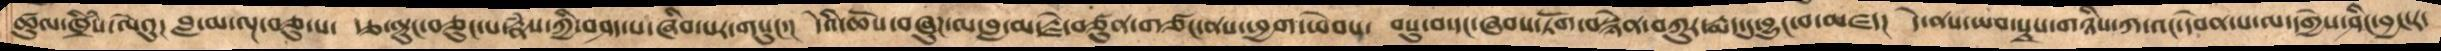ཚུལ་ཁྲིཾས་ལེའུ། བླ་མ་ལྔ་བཅུ་པ། རྩ་ལྟུང་བཅུང་པ་རྣཾས་ཀྱི་བཤད་པ་ཞིབ་པར་གསུང་།  དེའི་ཆོས་བཞུཌ་ལ་བླ་མ་རྗེ་བཙུན་གཙང་ནས་ཕྱག་ཕེབས་  བསུ་བ་དང་ཞབས་ཏོག་བསྙེན་བཀུར་རྨད་དུ་བྱུང་བ་མཛད།  དེ་ནས་ཡབ་སྲས་གཉིིས་ཀ་འང་དབེན་པ་ལ་དགྱེས་ཤིང་བྱང་ར་
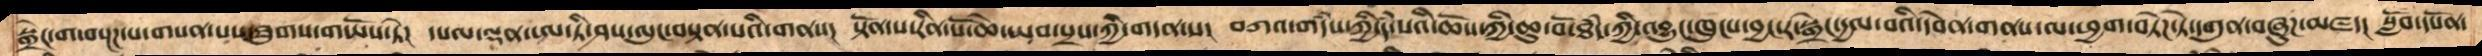སྒྲེང་ག་བསྔཌ་པ་གསན་པས་ཐུགས་གཡོས་ཏེ།  དཔལ་ལྡན་ཨ་ཏི་ཤས་ལུང་བསྟན་པའི་གནས་།  སྟོན་པ་རིན་པོ་ཆེ་ཡབ་སྲས་ཀྱི་གདན་ས།  བཀའ་གདཾས་ཀྱི་དཾ་པའི་ཆོས་ཀྱི་ཆུ་བོ་ཐཾད་ཀྱི་འབྱུང་ཁུངས་བྱང་ར་སྒྲེང་དྱལ་བའི་དབེན་གནས་ལ་ཕྱག་བཏེཌ་ཏེ་དགུན་བཞུཌ་མཛད།  སློབ་དཔོན་
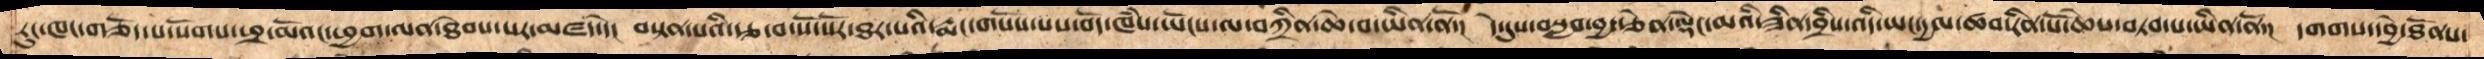རུང་ཁང་གཅོད་པ་སོགས་ཕྲ་མོའང་ཕྱག་ལེན་ཐེབས་པར་མཛད་དེ།  བསྟན་པའི་རྩ་བ་སོ་སོར་ཐར་པའི་རྨང་གསོས་པས་བོད་ཁཾས་ཡོངས་ལ་བཀྲིན་ཆེ་བ་ཡི་ནོ་།  དེ་དུས་བསླབ་བྱ་རྩེན་ལྡེང་མའི་ཟིན་བྲིས་འདི་ཡང་དྱལ་ཚབ་རིན་པོ་ཆེས་བཏབ་པ་ཡིན་ནོ་།  དགགས་དབྱེ་ཐོནས་
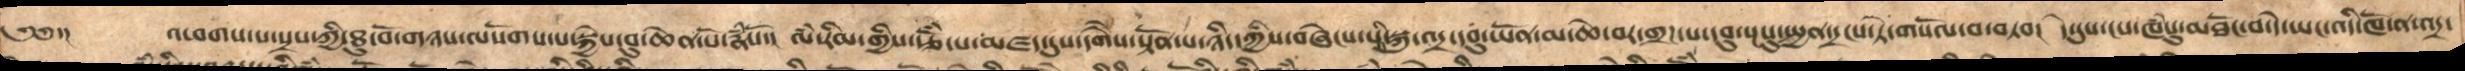༄༅་།     འཕགས་པ་སྲས་ཀྱི་ཐུ་བོ་གཉས་ལསོགས་པ་སྐྱེས་བུ་ཆེན་པོ་རྣཾསོ།  ལཾ་རིམ་གྱི་རྩོཾ་པ་མཛད་དུས་དགཻས་སྟོན་པ་ཉིད་ཀྱིས་བཞེངས་པའི་སྐུ་འདྲ་དབུ་ཡོན་མ་ཆེ་བར་གྲཌ་པ་དབུ་སྔསུ་སྤྱན་དྲངས་ཏེ་གསོལ་བ་བཏབ།  དེ་དུས་ངས་ཁཾསུ་མཐོང་བ་དེ་ཡང་འདི་ཁོ་ན་འདྲ་
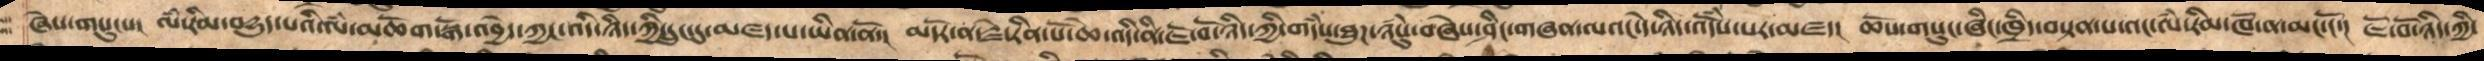ཞེས་གསུངས།  ལཾ་རིམ་བདྱུད་པའི་ལཾ་མཆོག་སྒོ་འབྱེད་ཀྱང་དེ་ཉིད་ཀྱི་དྲུང་དུ་མཛད་པ་ཡིན་ནོ།  མདོར་ན་རྗེ་རིན་པོ་ཆེ་འདི་ནི་ཇོ་བོ་ཉིད་ཀྱི་གདཾས་ཐུཌ་ཉཾསུ་བཞེས་ཤིང་གཞན་ལའང་དེ་ཉིད་འདོཾས་པར་མཛད།  ཆོས་གསུང་ཞིང་ཁྲིད་བསྟན་པའང་ལཾ་རིམ་ཁོ་ན་མང་ངོ་།  ཇོ་བོ་ཉིད་ཀྱི་
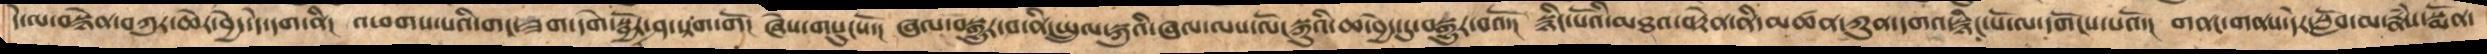དེ་ལ་བསྙེན་བཀུར་ཆེར་བྱེད་དེ་དག་ནི།  འཕགས་པའི་གང་ཟག་དགེ་སྦྱོར་ཤ་སྟག་གོ།  ཞེས་གསུངསོ་།  ཞལ་བསྒྱུར་བ་ནི་སྤྲུལ་སྐུའི་ཞལ་ལས་ལོངསྐུའི་ཆ་བྱེད་དུ་བསྒྱུར་བའོ།  སྙིང་པོའི་མཐའ་བརྟེན་ནི་མཚན་ཀུན་དགའ་སྙིང་པོ་ལ་དགོངས་པའོ།  གནང་གནས་དེར་སློབ་མ་རྣཾས་སྨོན་
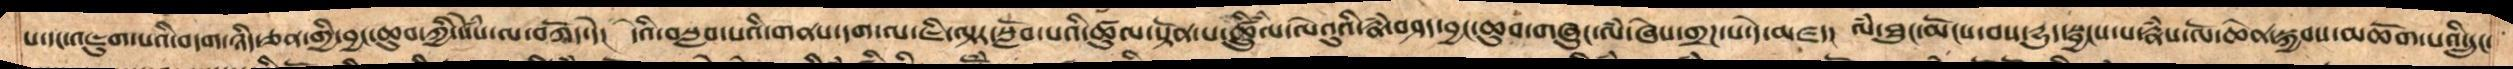པ་དང་འཇུག་པའི་བདག་ཉིད་ཅན་གྱི་བྱང་ཆུབ་ཀྱི་སེཾས་ལ་བཀོད་དེ།  དེའི་བསླབ་པའི་གནས་དག་ལ་ཇི་ལྟར་སློབ་པའི་ཚུལ་སྟོན་པ་ཚྲིུཾས་ལེའུའི་རྣཾ་བཤད་བྱང་ཆུབ་གཞུང་ལཾ་ཞེས་གྲཌ་པ་དེ་མཛད།  ལཾ་ཐུན་མོངས་བས་དྱུད་སྦྱངས་པ་རྣཾས་ལོ་ཆེན་སྐྱབས་མཆོག་པའི་དྲུང་
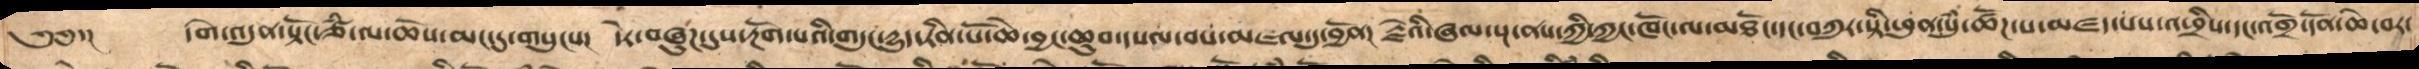༄༅་།     དགེ་འདུན་སྟོང་ཙཾ་ལ་ཆོས་མང་དུ་གསུངས།  དེར་བཞུཌ་དུས་རྔོག་པའི་གདུང་དྱུད་རིན་པོ་ཆེ་བྱང་ཆུབ་དཔལ་བས་མཇལ་དུ་བྱོན།  རྗེའི་ཞལ་སྔ་ནས་ཀྱི་ཀྱང་ཁོང་ལ་མཐོང་དང་བཀུར་སྟི་ཕུན་སུཾ་ཚོཌ་པ་མཛད་པས་འཕྲིས་དང་འགྲོ་དོན་ཆེ་བར་
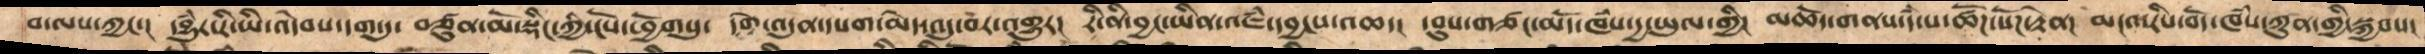བ་ལས་ཀྱང་།  དབྱུཾར་རི་ཡི་འདེབས་དག་དུ་  བཙུན་མོ་སྡིང་ཀྱི་ངོས་ཕྱོགསུ།  དགེ་འདུན་དཔག་མེད་འདུ་བར་འགྱུར།  རི་ནི་བྱང་ཡིན་འཇཾ་དབྱངསའཆད།  དབུས་གཙང་མདོ་ཁཾས་དྱ་ཡུལ་གྱི།  མཆོད་གནས་དཾ་པ་ཚོཌ་སོཌ་རྟེན།  མངའ་རིས་བོད་ཁཾས་ཀུན་གྱི་སྐྱབས།
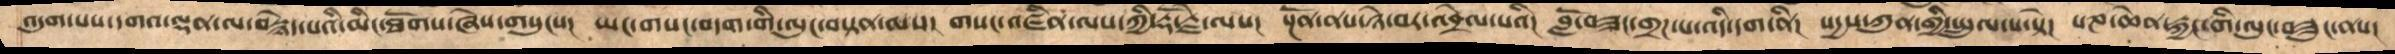འདུག་པས་དགའ་ལྡན་ལ་བསྙེད་པའི་མིང་ཐོགས་ཞེས་གསུངས།  ཡང་གསང་བདག་གི་ལུང་བསྟན་ལས།  གསང་འཛིན་ལས་ཀྱི་རྡོ་རྗེ་ལ།  སྔོན་ནས་ཉེ་བར་འབྲེལ་པའི།  བློ་བཟང་གྲཌ་པ་འདི་ཉིད་ནི།  སདྱས་ཀུན་གྱི་སྤྲུལ་པ་སྟེ།  པཎ་ཆེན་རྐྱང་གི་ལུས་བཟུང་ནས།
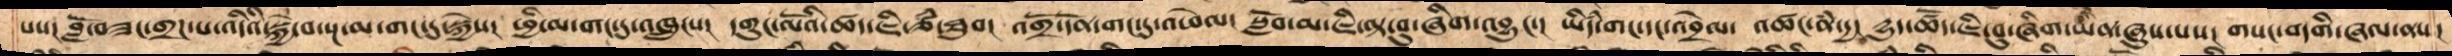པས།  བློ་བཟང་གྲཌ་པ་འདིའི་སྐྱེ་བ་སྔ་མ་གང་དུ་སྐྱེས།  ཕྱི་མ་གང་དུ་འཁྲུངས། དགུང་ལོའི་ཚད་ཇི་ཙཾ་ཐུབ།  འགྲོ་དོན་གང་དུ་འཕེལ།  སློབ་མ་ཇི་ལྟ་བུ་ཞིག་འབྱུང་།  ཡིདཾ་གང་དང་འབྲེལ།  འཚང་ནཾ་དྱ།  དྱུད་ཚོད་ཇི་བུ་ཞིག་ཡིན་ཞུས་པས།  གསང་བདགི་ཞལ་ནས།
